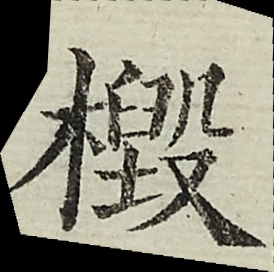檓
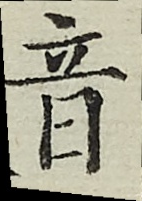音
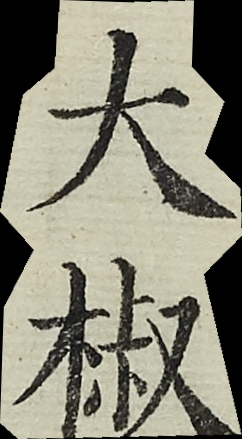大椒
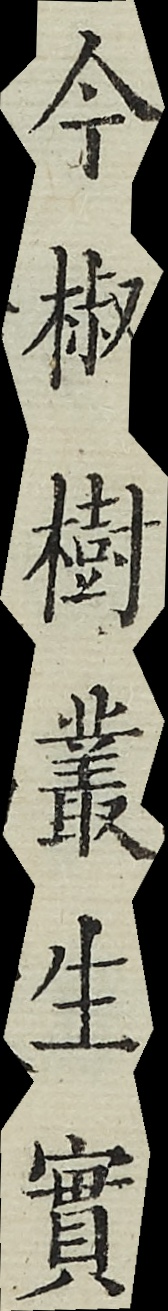今椒樹叢生實
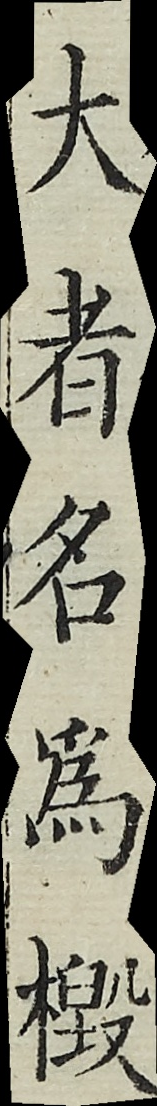大者名為檓
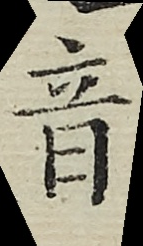音
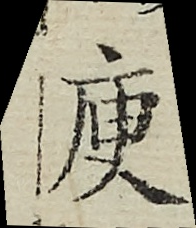庾
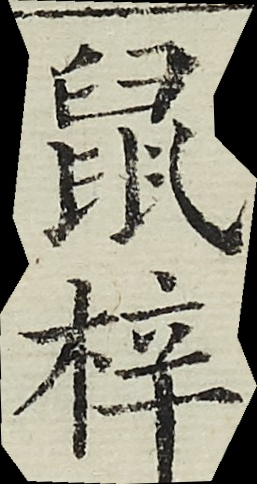鼠梓
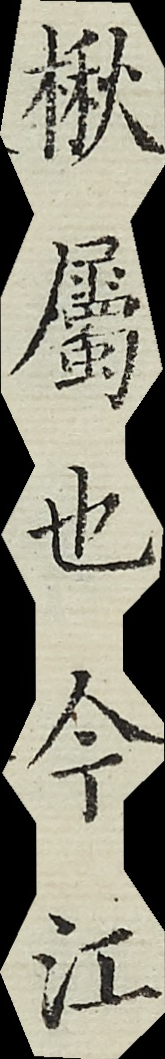楸屬也今江
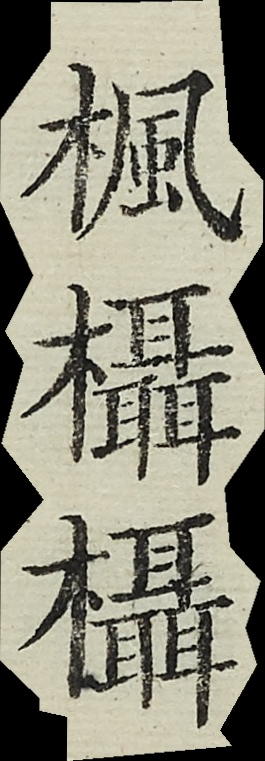楓欇欇
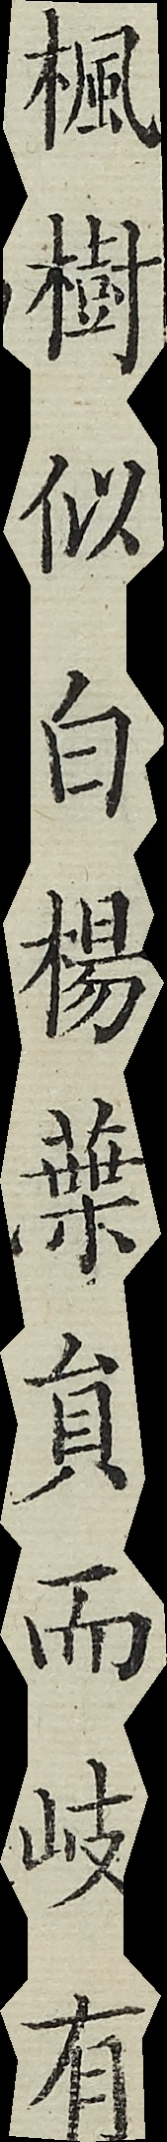楓樹似白楊葉貟而岐有
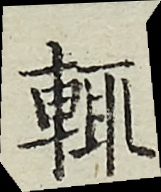輒
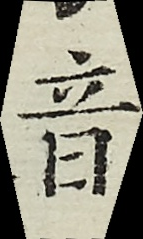音
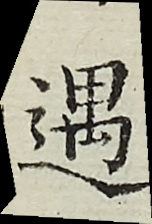遇
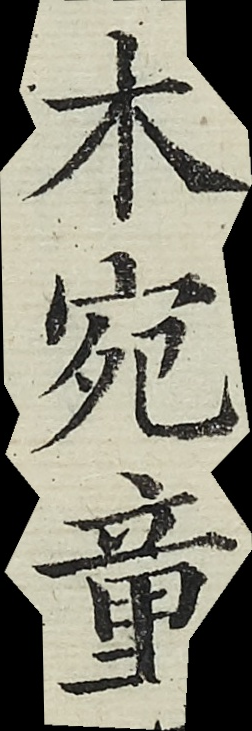木宛童
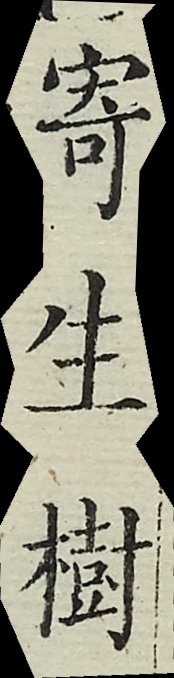寄生樹
